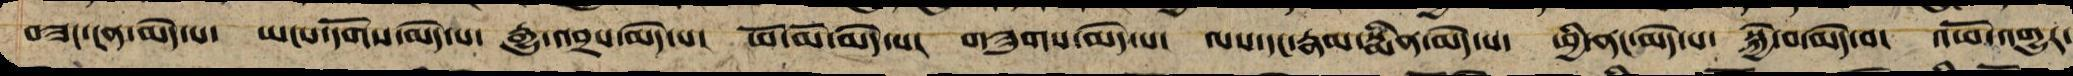བཟང་ངན་མེད་པ་ ཡངས་དོགས་མེད་པ་ རྒྱུ་འབྲས་མེད་པ། ཕོ་མོ་མེད་པ། གཟུགས་མེད་པ། ལས་དང་རྣམ་སྨིན་མེད་པ་ ཕྱི་ནང་མེད་པ་ སྐྱེ་བ་མེད་བ་ འཕོ་འགྱུར་
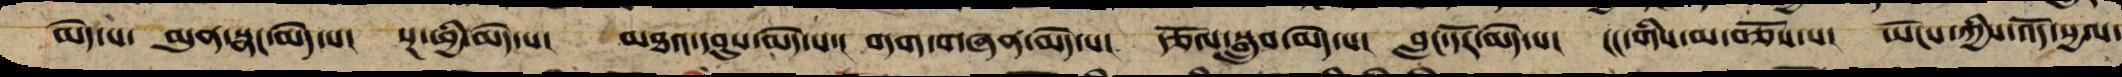མེད་པ་ མུན་སྣང་མེད་པ། སྔ་ཕྱི་མེད་པ། མཐའ་དབུས་མེད་པ་། བདག་གཞན་མེད་པ། རྩོལ་བསྒྲུབ་མེད་པ། བླང་དོར་མེད་པ། ངང་གིས་མ་བཅོས་པ། ཡོངས་ཀྱིས་འོད་སྱལ་
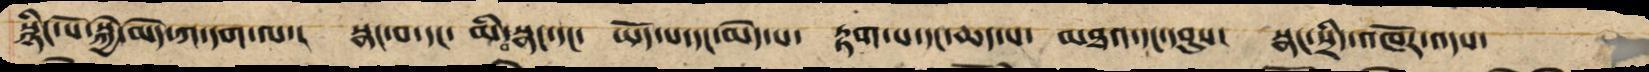སྙིང་པོ་སྐྱེ་མེད་ཀ་དག་ལ་།   སྣང་བ་དང་   མི་སྣང་བ་དང་   ཡོད་པ་དང་མེད་པ་   རྟག་པ་དང་ཆད་པ་   མཐའ་དང་དབུས་   སྣང་སྲིད་འཁོར་འདས་
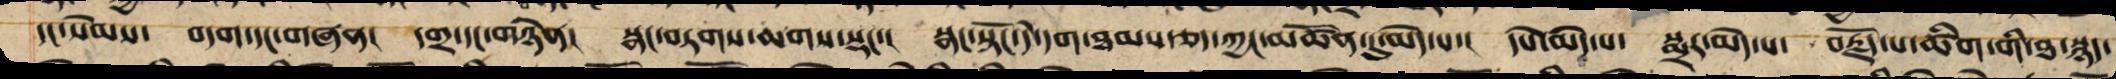དང་སེམས་ བདག་དང་གཞན། དགྲ་དང་གཉེན། སྣང་བཏགས་ཆགས་སྡང་། སྣང་སྟོང་དེ་དག་ཐམས་ཅད་ཀྱང་མཚོན་དུ་མེད་པ་། དཔེ་མེད་པ་ སྨྲར་མེད་པ་ བརྗོད་པ་ཚིག་གི་ཐ་སྙད་
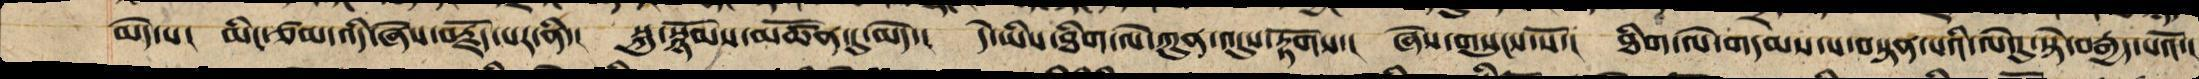མེད་པ། མིང་ཙམ་འདི་ཞེས་བརྗོད་པར་ནི་། སྐུ་སྙོམས་མཚོན་དུ་མེད་། དེ་ཡིས་ཐིག་ལེ་ཀུན་འདུས་རྟོགས་། ཞེས་གསུངས་སོ་། ཐིག་ལེ་གདམས་པ་བསྟན་པའི་ལེའུ་སྟེ་བརྒྱད་པའོ་།།
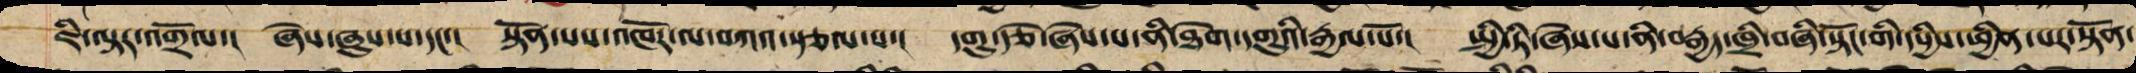ཇི་ལྟར་དགྲོལ་། ཞེས་ཞུས་པ་དང་། སྟོན་པས་འཁོར་ལ་བཀའ་སྩལ་པ་། དགུ་རྩེ་ཞེས་པ་ནི་ཐེག་དགུའི་རྒྱལ་པོ་། སྤྱི་ཏི་ཞེས་པ་ནི་བརྒྱད་ཁྲི་བཞི་སྟོང་གི་དཔྱིས་ཕྱིན་པར་སྟོན་
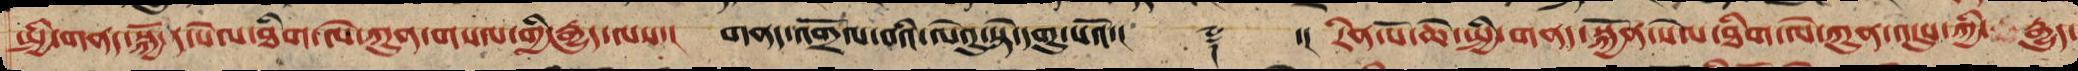སྤྱི་གནད་སྐྱོན་སེལ་ཐིག་ལེ་ཀུན་གསལ་གྱི་རྒྱུད་ལས་། གནད་འགྲོལ་བའི་ལེའུ་སྟེ་དགུ་པའོ་།། ༈ ་། རིན་པོ་ཆེ་སྤྱི་གནད་སྐྱོན་སེལ་ཐིག་ལེ་ཀུན་འདུས་ཀྱི་ རྒྱུད་
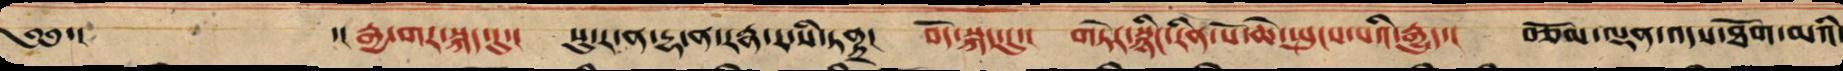༄༅་། ་། རྒྱ་གར་སྐད་དུ་། སུ་ར་ན་དྷ་ན་རཏྣ་ར་སི་ཏནྟྲ། བོད་སྐད་དུ་། གཏེར་སྙིང་རིན་པོ་ཆེ་སྤུངས་པའི་རྒྱུད་། བཅོམ་ལྡན་འདས་ཐོག་མའི་
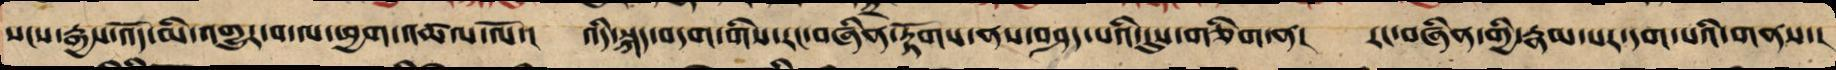སངས་རྒྱས་འོད་མི་འགྱུར་བ་ལ་ཕྱག་འཚལ་ལོ་། འདི་སྐད་བདག་གིས་རང་བཞིན་རྟོགས་ནས་བཤད་པའི་དུས་གཅིག་ན། རང་བཞིན་གྱི་རྣམ་པར་དག་པའི་གནས་།
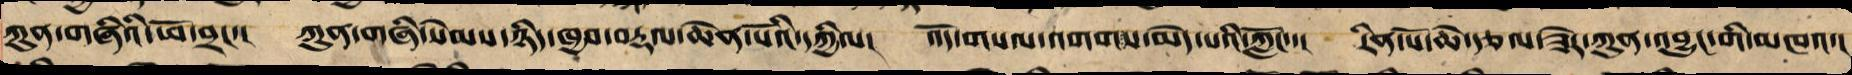ཀུན་གཞིའི་ཕོ་བྲང་། ཀུན་གཞི་སེམས་ཉིད་ཁྱབ་བརྡལ་ཆེན་པོའི་དཀྱིལ། འོད་གསལ་འགག་པ་མེད་པའི་ཀློང་་། རིན་པོ་ཆེ་རྩལ་ཟེར་ཀུན་འབྱུང་གི་མཁའ་།
